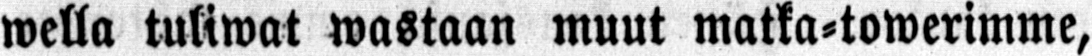wella tuliwat wastaan muut matka-towerimme,
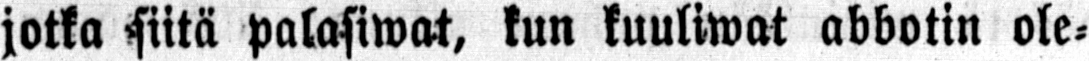jotka siitä palasiwat, kun kuuliwat abbotin ole-
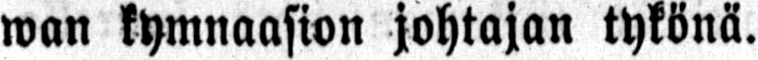wan kymnaasion johtajan tykönä.
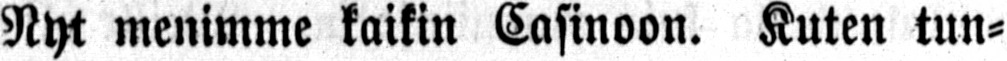Nyt menimme kaikin Casinoon. Kuten tun-
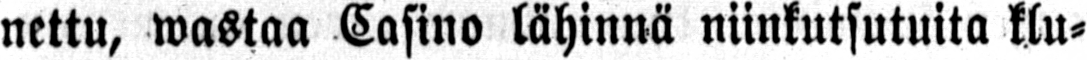nettu, wastaa Casino lähinnä niinkutsutuita klu-
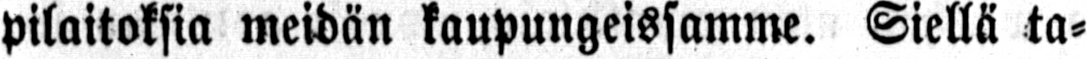pilaitoksia meidän kaupungeissamme. Siellä ta-
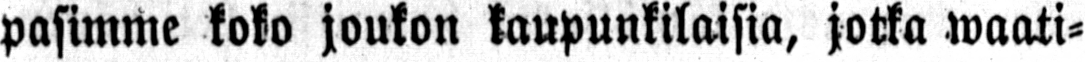pasimme koko joukon kaupunkilaisia, jotka waati-
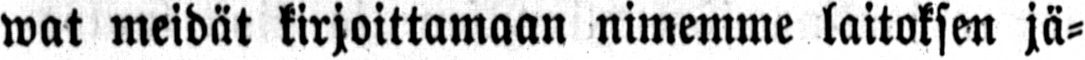wat meidät kirjoittamaan nimemme laitoksen jä-
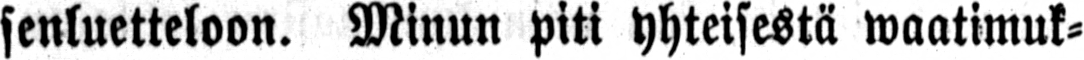senluetteloon. Minun piti yhteisestä waatimuk-
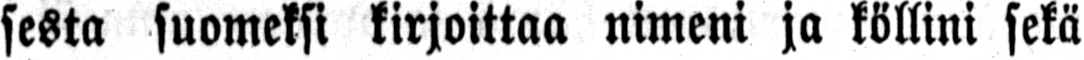sesta suomeksi kirjoittaa nimeni ja köllini sekä
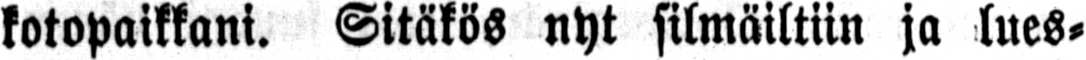kotopaikkani. Sitäkös nyt silmäiltiin ja lues-
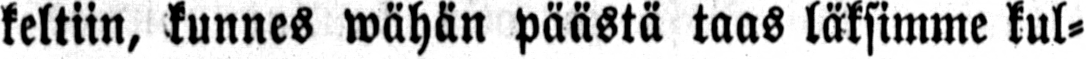keltiin, kunnes wähän päästä taas läksimme kul-
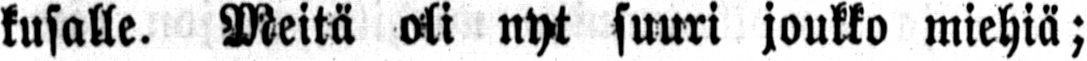kusalle. Meitä oli nyt suuri joukko miehiä;
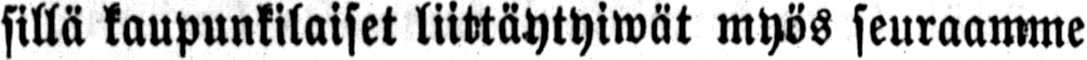sillä kaupunkilaiset liittäytyiwät myös seuraamme
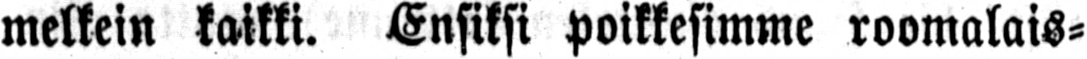melkein kaikki. Ensiksi poikkesimme roomalais-
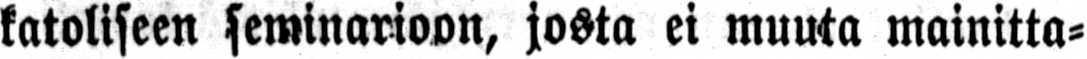katoliseen seminarioon, josta ei muuta mainitta-
